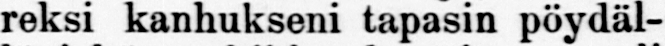reksi kanhukseni tapasin pöydäl-
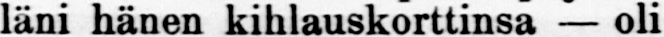läni hänen kihlauskorttinsa — oli
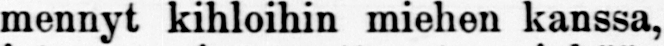mennet kihloihin miehen kanssa,
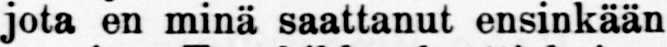jota en minä saattanut ensinkään
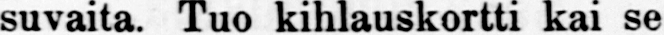suvaita. Tuo kihlauskortti kai se
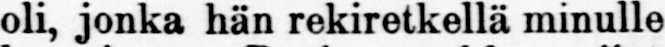oli, jonka hän rekiretkellä minulle
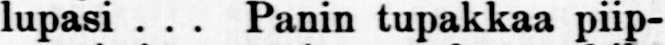lupasi . . . kanin tupakkaa piip-
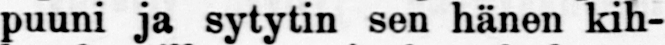puuni ja sytytin sen hänen kih-
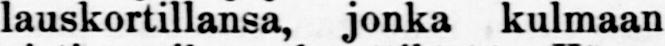lauskortillansa, jonka kulmaan
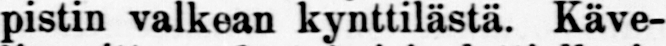pistin valkean kynttilästä. Käve-
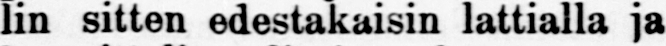lin sitten edestakaisin lattialla ja
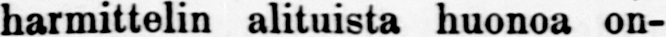harmittelin alituista huonoa on-
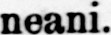neani.
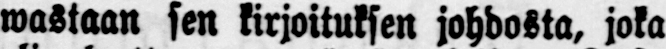wastaan sen kirjoituksen johdosta, joka
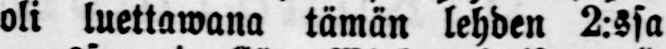oli luettawana tämän lehden 2:ssa
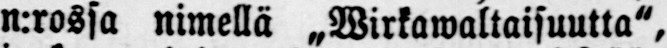n:rossa nimellä „Wirkawaltaisuutta",
